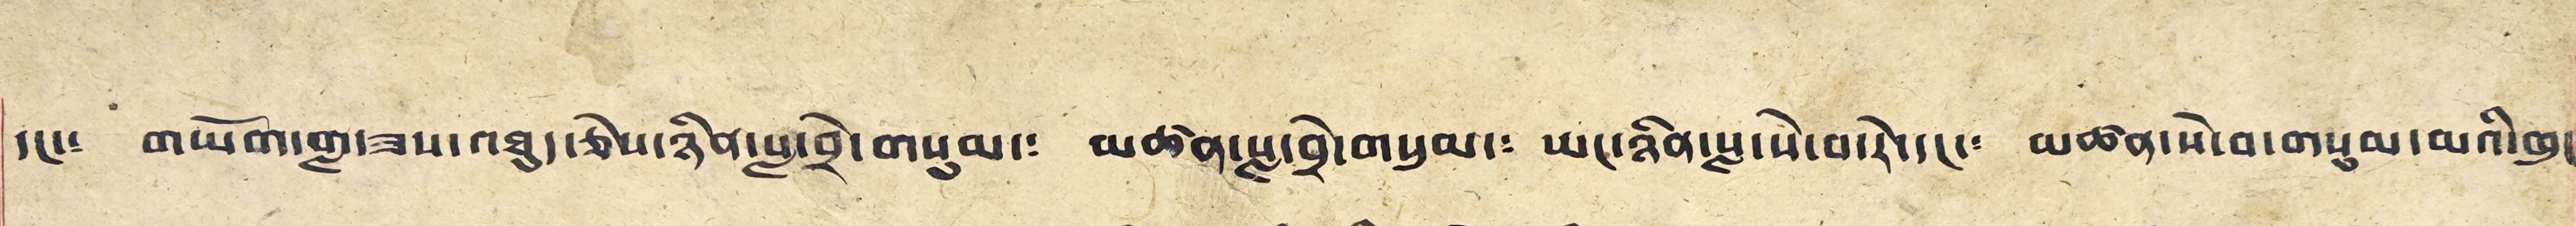དང་༴ གཡོག་གླ་ཟས་འཐུད་ཅེས་ཉིན་སླ་བྲེ་གསུམ་༴ མཚན་སླ་བྲེ་གསུམ་༴ ཡང་ཉིན་སླ་སེ་བསེ་དང་༴ མཚན་སེ་བ་གསུམ་མའི་ཁུང༴
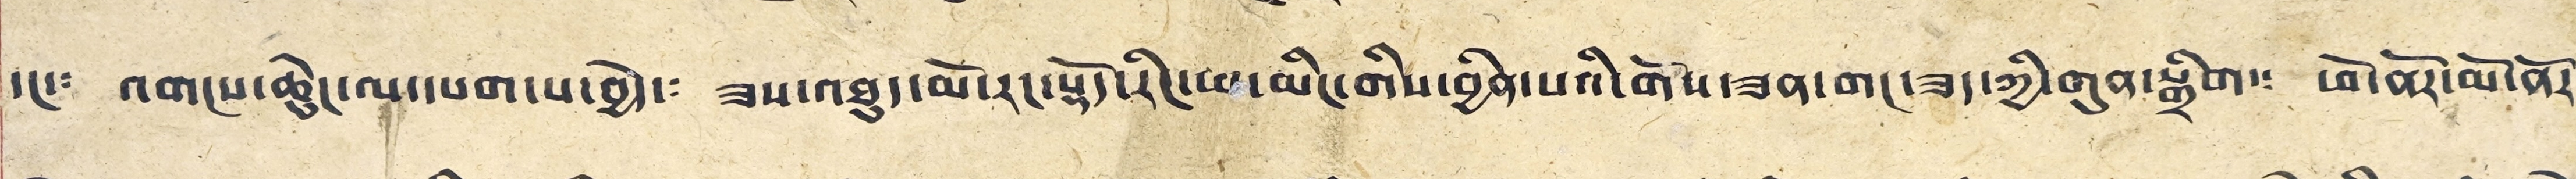དང་༴ འགངས་ཆེ་ཆུང་ལ་དཔག་པ་བྱེད་༴ ཟས་འཐུད་མོ་རང་སྟོད་རིང་ཕ་མིང་གིས་བྱིན་པའི་གོས་ཟན་གང་ཟད་ཀྱི་གུན་སྒྲིག་༴ ཕོ་ནོར་མོ་ནོར་
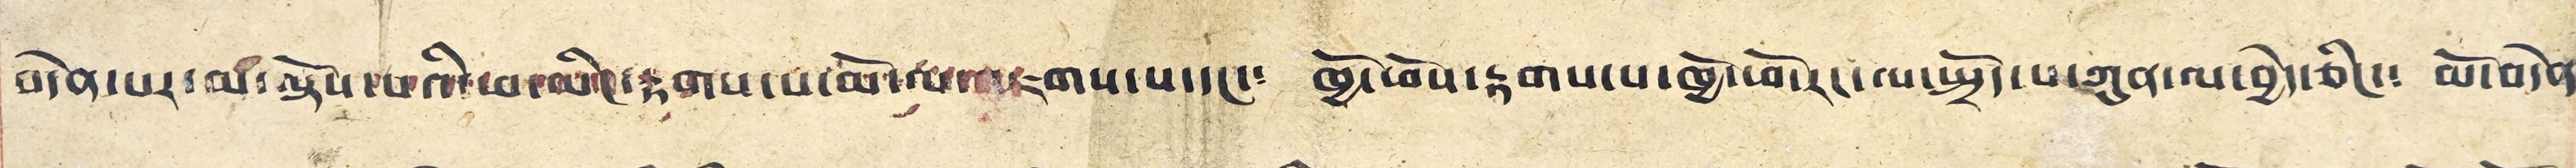བདེན་པར་མ་ལྟོས་པའི་ཕ་མིང་རྟགས་པ་མོ་ལ་འཇགས་པ་དང་༴ ཁྱོ་ཕོས་རྟགས་པ་ཁྱོ་ཕོ་རེང་ལ་སྤྲོད་པ་ཀུན་ལ་བྱེད་ཅིང་༴ མོ་བདེན༴
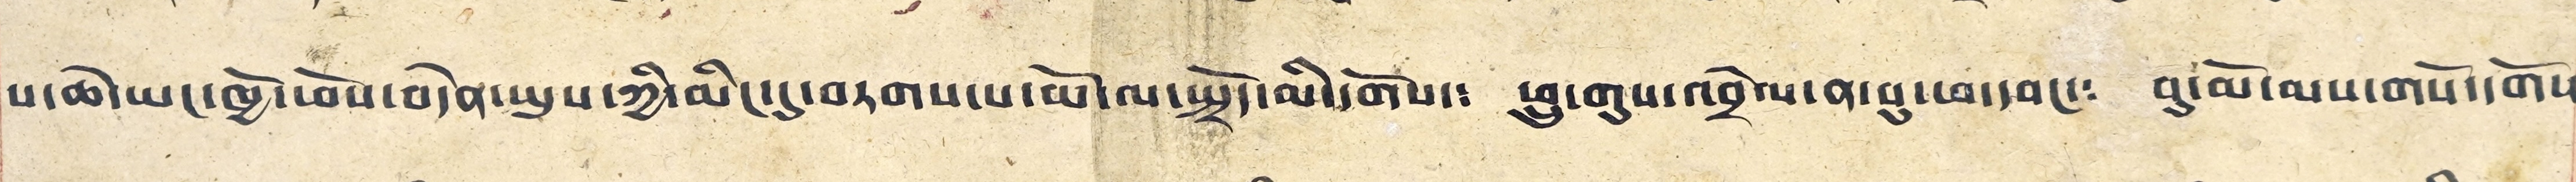པ་ཆེ་ཡང་ཁྱོ་མོས་བདེན་ཡུས་ཀྱི་མིང་དུ་བཏགས་པ་ཕོ་ལ་སྤྲོད་མི་དགོས་༴ ཕྲུ་གུས་འབྲེལ་ན་བུ་ཕ་དབང་༴ བུ་མོ་མས་གསོ་དགོས༴
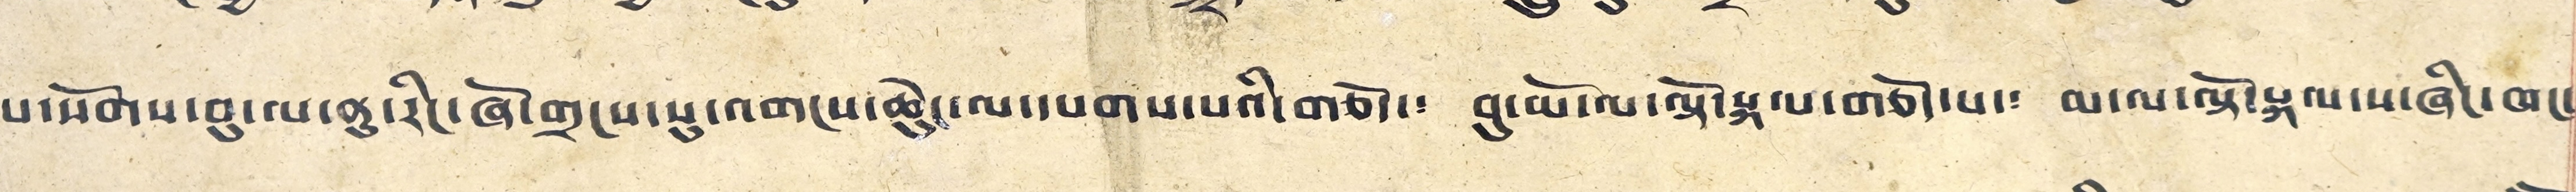པ་སོགས་བུ་ལ་ནུ་རིང་ཞོ་གྲངས་སུ་འགངས་ཆེ་ཆུང་ལ་དཔགས་པའི་གཅོད་༴ བུ་མོ་ལ་ལྟོ་སྐལ་གཅོད་པ་༴ མ་ལ་ལྟོ་སྐལ་པ་ཞིང་ཁང་
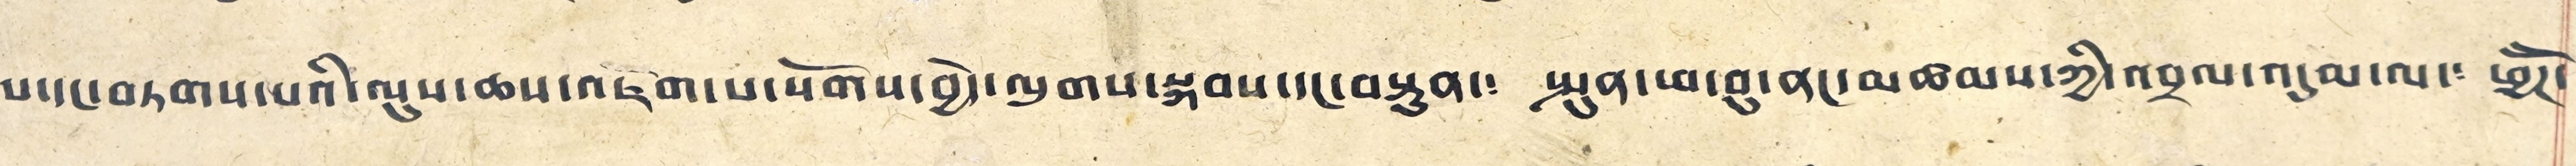པ་དང་བཏགས་པའི་ལུས་ཆས་འཇོག་པ་སོགས་བྱེད་ལུགས་སྐབས་དང་བསྟུན་༴ སྤུན་ཕ་བུ་ནང་མཚམས་ཀྱི་འབྲལ་འདུམ་ལ་༴ ཕྱོཊོ་
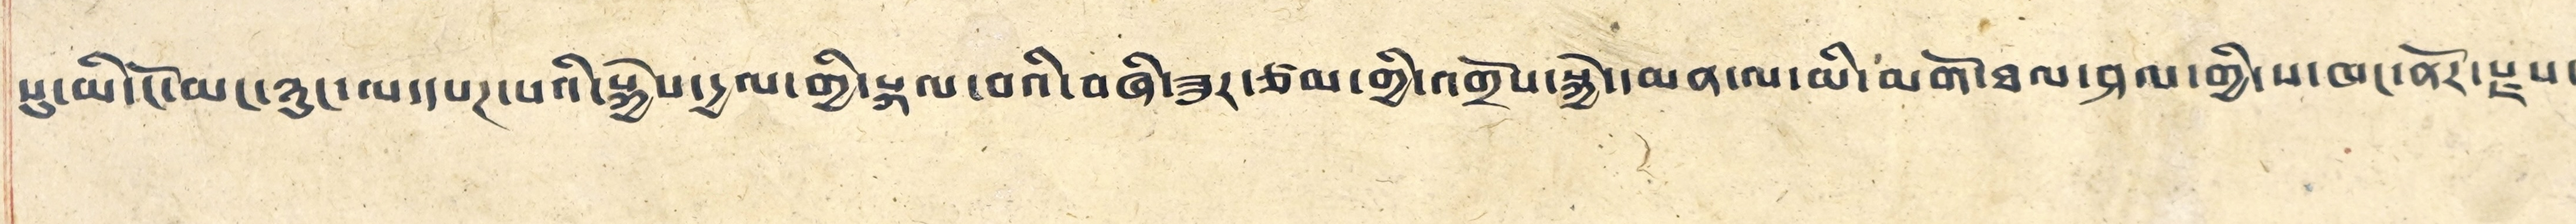སུ་ཡི་ངོ་མང་ཉུང་ལ་དཔཊ་པའི་སྐྱེས་དྱལ་གྱི་སྐལ་བའི་བཞི་ཟུར་ཙམ་གྱི་འགྲོས་སྐྱེ་མན་ལ་མི་མགོ་ཐལ་ཤལ་གྱིས་ཁང་ནོར་རྫས་
